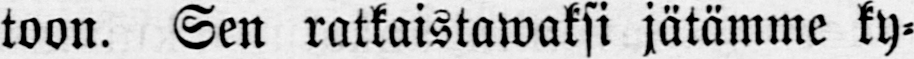toon. Sen ratkaistawaksi jätämme ky-
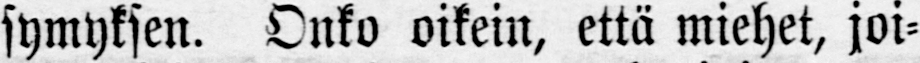symyksen. Onko oikein, että miehet, joi-
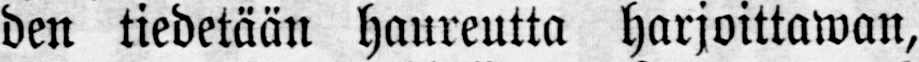den tiedetään haureutta harjoittawan,
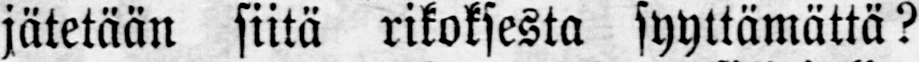jätetään siitä rikoksesta syyttämättä?
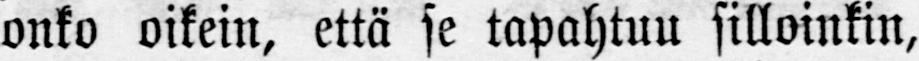onko oikein, että se tapahtuu silloinkin,
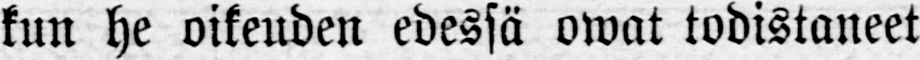kun he oikeuden edessä owat todistaneet
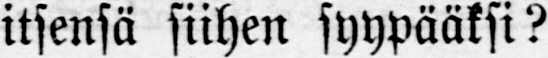itsensä siihen syypääksi?
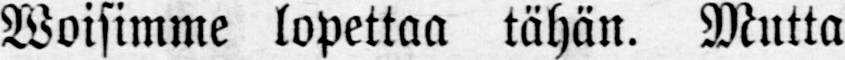Woisimme lopettaa tähän. Mutta
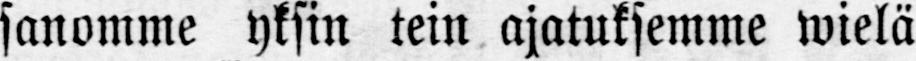sanomme yksin tein ajatuksemme wielä
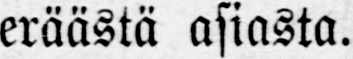eräästä asiasta.
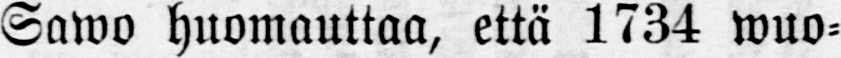Sawo huomauttaa, että 1734 wuo-
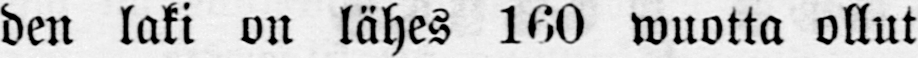den laki on lähes 160 wuotta ollut
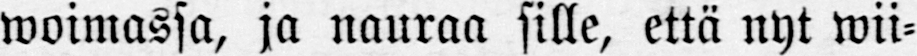woimassa, ja nauraa sille, että nyt wii-
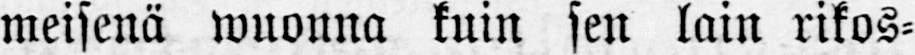meisenä wuonna kuin sen lain rikos-
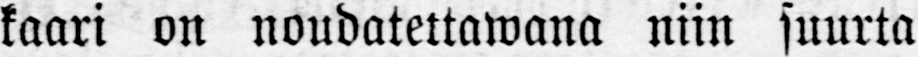kaari on noudatettawana niin suurta
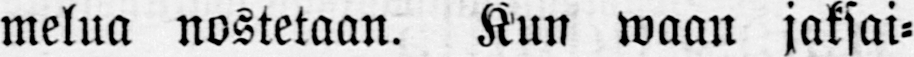melua nostetaan. Kun waan jaksai-
